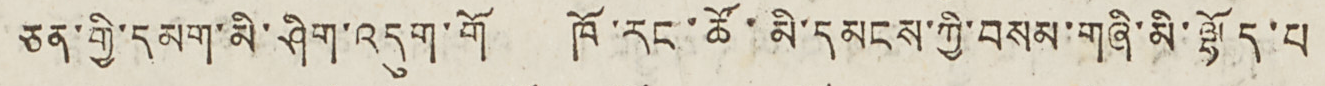ཅན་གྱི་དམག་མི་ཤིག་འདུག་གོ ཁོ་རང་ཚོ་མི་དམངས་ཀྱི་བསམ་གཞི་མི་ལྷོད་པ
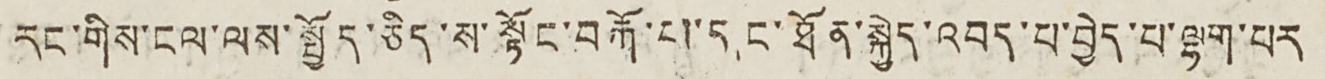རང་གིས་ངལ་ལས་སྤྱོད་ཅིད་ས་སྟོང་བརྐོ་པ་དང་ཐོན་སྐྱེད་འབད་པ་བྱེད་པ་ལྷག་པར
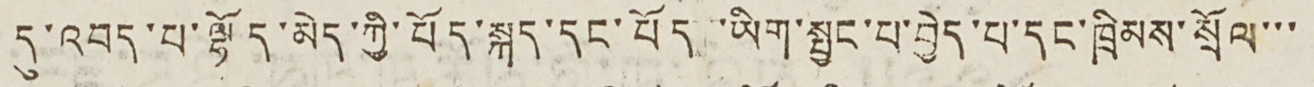དུ་འབད་པ་ལྷོད་མེད་ཀྱི་བོད་སྐད་དང་བོད ་ཡིག་སྦྱང་པ་བྱེད་པ་དང་ཁྲིམས་སྲོལ་་་
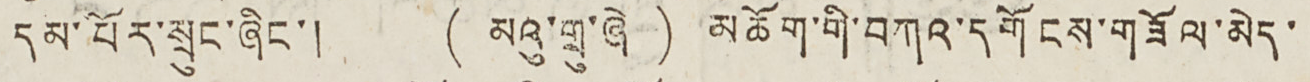དམ་པོར་སྲུང་ཞིང་། ( མའུ་གྲུ་ཞེ ) མཆོག་གི་བཀའ་དགོངས་གཟོལ་མེད་
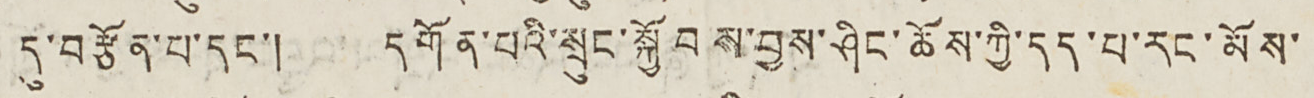དུ་བརྩོན་པ་དང་། དགོན་པའི་སྲུང་སྐྱོབས་བྱས་ཤིང་ཆོས་ཀྱི་དད་པ་རང་མོས་
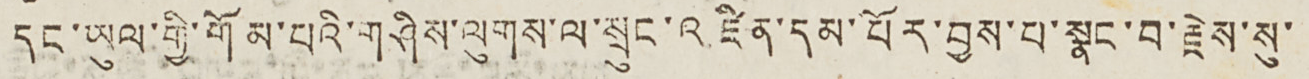དང་ཡུལ་གྱི་གོམ་པའི་གཤིས་ལུགས་ལ་སྲུང་འཛིན་དམ་པོར་བྱས་པ་སྣང་བ་རྗེས་སུ་
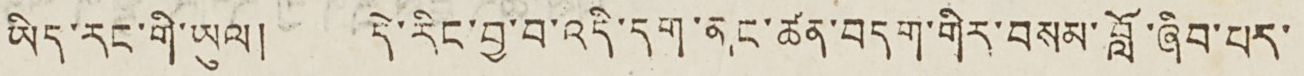ཡིད་རང་གི་ཡུལ། དེ་རིང་བྱ་བ་འདི་དག་ནང་ཚན་བདག་གིར་བསམ་བློ་ཞིབ་པར་
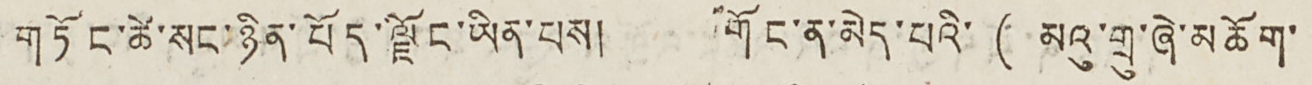གཏོང་ཚེ་སང་ཉིན་བོད་ལྗོང་ཡིན་པས། གོང་ན་མེད་པའི་ ( མའུ་གྲུ་ཞེ་མཆོག་
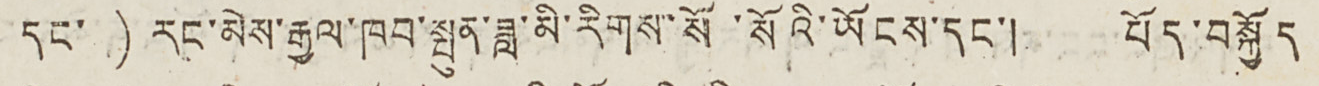དང་ ) རང་མེས་རྒྱལ་ཁབ་སྤུན་ཟླ་མི་རིགས་སོ ་སོའི་ཡོངས་དང་། བོད་བསྐྱོད
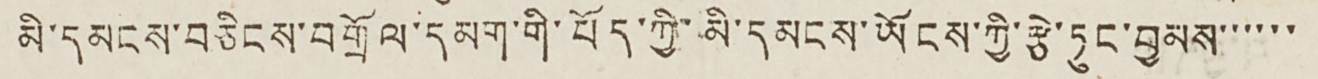མི་དམངས་བཅིངས་བགྲོལ་དམག་གི་བོད་ཀྱི་མི་དམངས་ཡོངས་ཀྱི་རྩེ་ཏུང་བྱམས་་་་་་
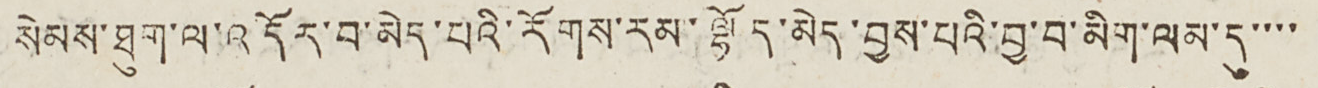སེམས་ཐུག་ལ་འདོར་བ་མེད་པའི་རོགས་རམ་ལྷོད་མེད་བྱས་པའི་བྱ་བ་མིག་ལམ་དུ་་་་
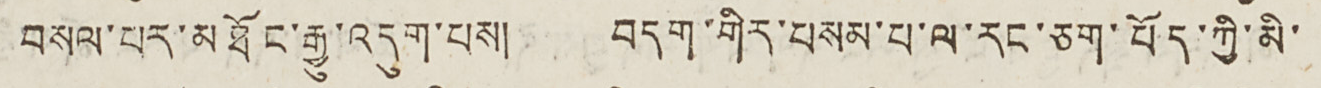བསལ་པར་མཐོང་རྒྱུ་འདུག་པས། བདག་གིར་བསམ་པ་ལ་རང་ཅག་བོད་ཀྱི་མི་
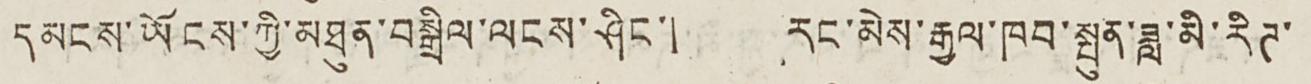དམངས་ཡོངས་ཀྱི་མཐུན་བསྒྲིལ་ལངས་ཤིང་། རང་མེས་རྒྱལ་ཁབ་སྤུན་ཟླ་མི་རིཊ་
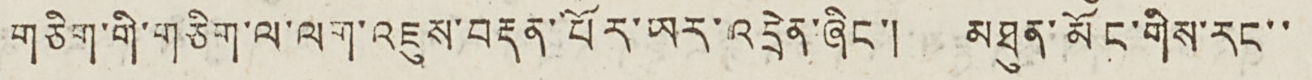གཅིག་གི་གཅིག་ལ་ལག་འཇུས་བརྡན་པོར་ཡར་འདྲེན་ཞིང་། མཐུན་མོང་གིས་རང་་
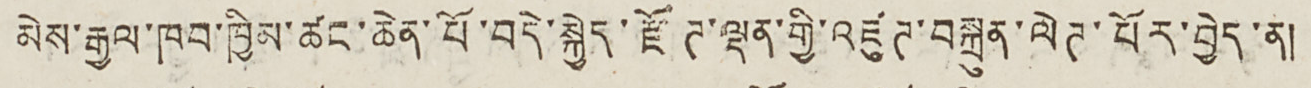མེས་རྒྱལ་ཁབ་ཁྱིམ་ཚང་ཆེན་པོ་བདེ་སྐྱེད་རྫོཊ་ལྡན་གྱི་འཛུཊ་བསྐྲུན་ལེཊ་པོར་བྱེད་ན།
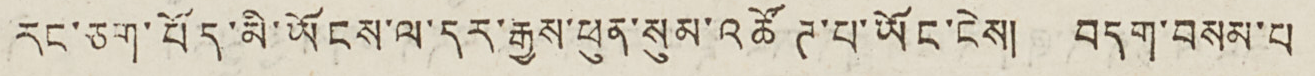རང་ཅག་བོད་མི་ཡོངས་ལ་དར་རྒྱས་ཕུན་སུམ་འཚོཊ་པ་ཡོང་ངེས། བདག་བསམ་པ
